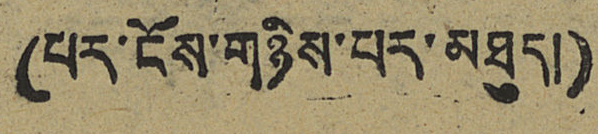(པར་ངོས་གཉིས་པར་མཐུད།)
